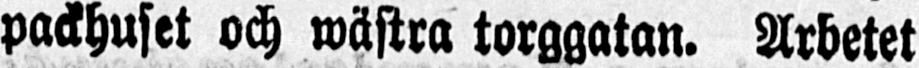packhuset och wästra torggatan. Arbetet
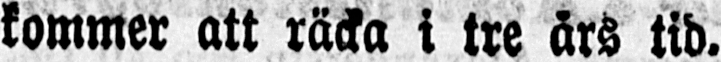kommer att räcka i tre års tid.
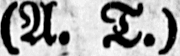(A. T.)
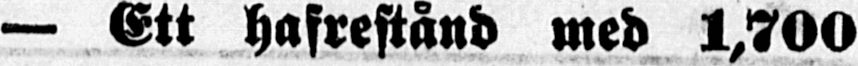— Ett hafrestånd med 1,700
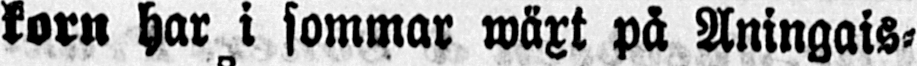korn har i sommar wäxt på Aningais-
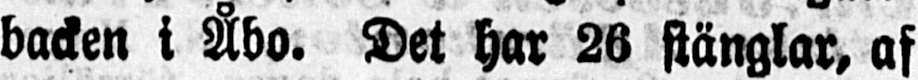backen i Åbo. Det har 26 stänglar, af
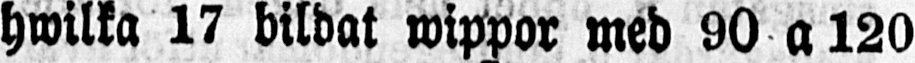hwilka 17 bildat wippor med 90 a 120
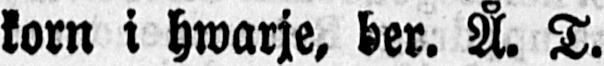korn i hwarje, ber. Å. T.
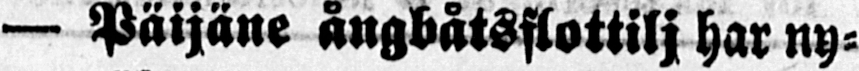— Päijäne ångbåtsflottilj har ny-
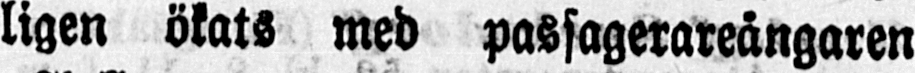ligen ökats med passagerareångaren
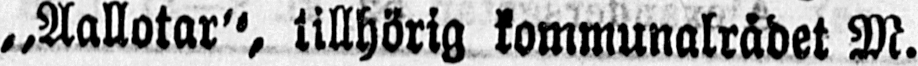„Aallotar", tillhörig kommunalrådet M.
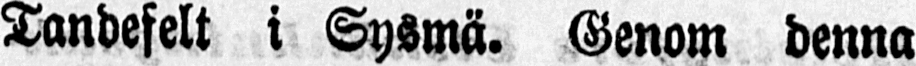Tandefelt i Sysmä. Genom denna
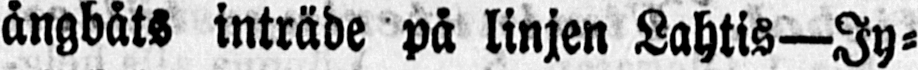ångbåts inträde på linjen Lahtis—Jy-
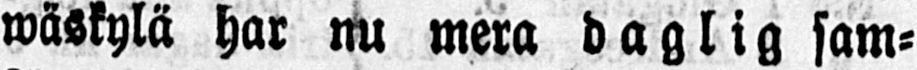wäskylä har nu mera daglig sam-
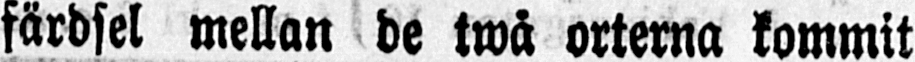färdsel mellan de twå orterna kommit
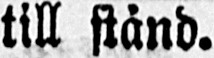till stånd.
